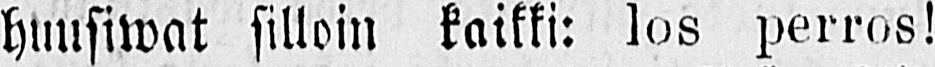huusiwat silloin kaikki: los perros!
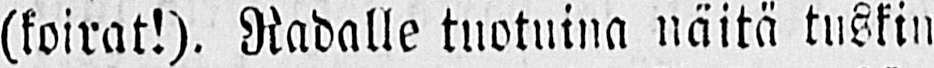(koirat!). Radalle tuotuina näitä tuskin
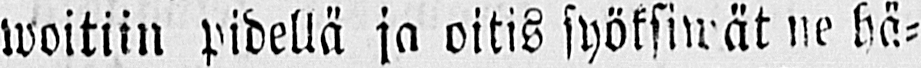woitiin pidellä ja oitis syöksiwät ne hä-
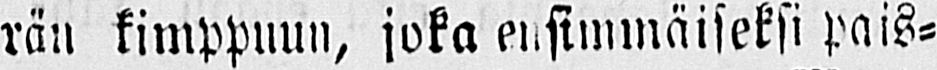rän kimppuun, joka ensimmäiseksi pais-
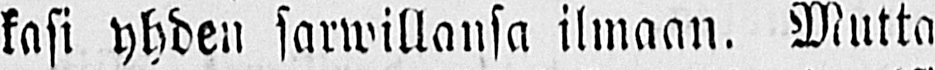kasi yhden sarwillansa ilmaan. Mutta
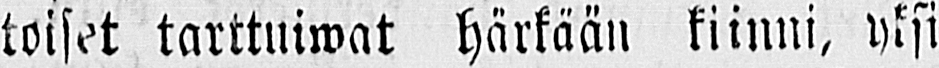toiset tarttuiwat härkään kiinni, yksi
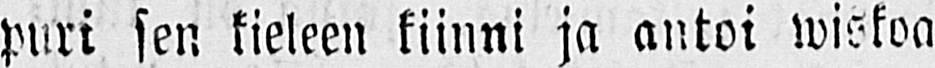puri sen kieleen kiinni ja antoi wiskoa
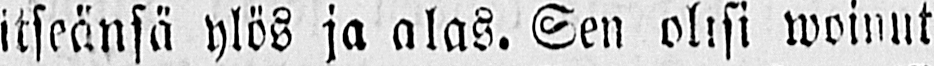itseänsä ylös ja alas. Sen olisi woinut
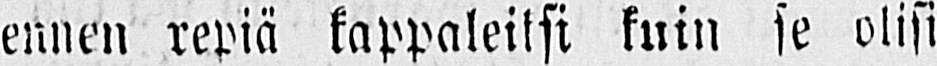ennen repiä kappaleiksi kuin se olisi
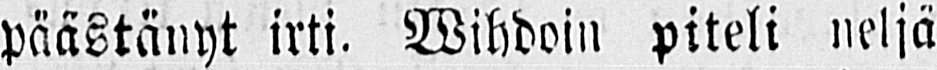päästänyt irti. Wihdoin piteli neljä
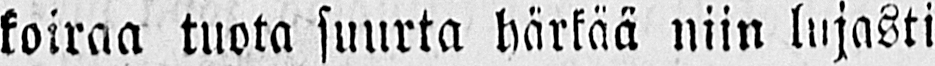koiraa tuota suurta härkää niin lujasti
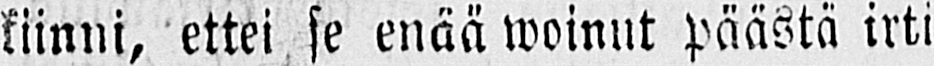kiinni, ettei se enää woinut päästä irti
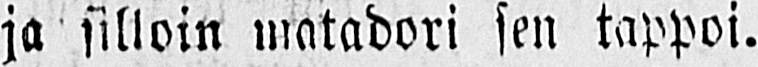ja silloin matadori sen tappoi.
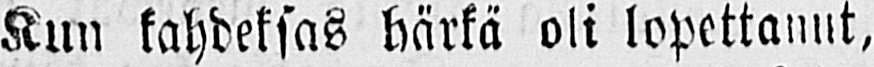Kun kahdeksas härkä oli lopettanut,
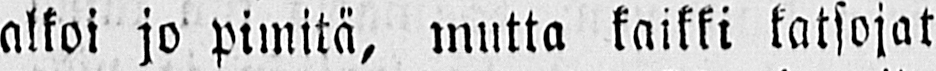alkoi jo pimitä, mutta kaikki katsojat
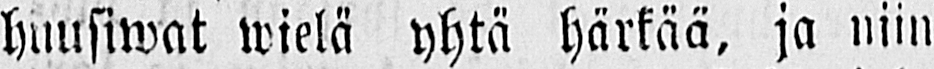huusiwat wielä yhtä härkää, ja niin
